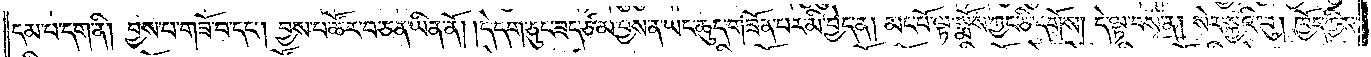དམ་པ་དག་ནི། བྱས་པ་གཟོ་བ་དང༌། བྱས་པ་ཚོར་བ་ཅན་ཡིན་ནོ། །དེ་དག་ཅུང་ཟད་ཙམ་བྱས་ན་ཡང་ཆུད་གཟོན་པར་མི་བྱེད་ན། མང་པོ་ལྟ་སྨོས་ཀྱང་ཅི་དགོས། དེ་ལྟ་བས་ན། སེར་སྐྱའི་བུ། ཁྱོད་ཀྱིས་
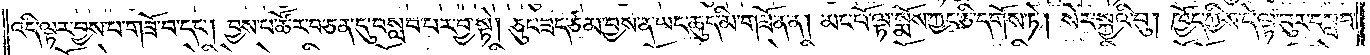འདི་ལྟར་བྱས་པ་གཟོ་བ་དང༌། བྱས་པ་ཚོར་བ་ཅན་དུ་བསླབ་པར་བྱ་སྟེ། ཅུང་ཟད་ཙམ་བྱས་ན་ཡང་ཆུད་མི་གཟོན་ན། མང་པོ་ལྟ་སྨོས་ཀྱང་ཅི་དགོས་ཏེ། སེར་སྐྱའི་བུ། ཁྱོད་ཀྱིས་དེ་ལྟ་བུར་བསླབ་
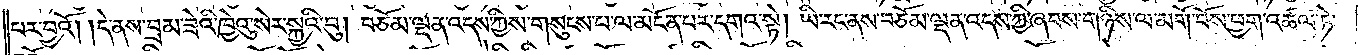པར་བྱའོ། །དེ་ནས་བྲམ་ཟེའི་ཁྱེའུ་སེར་སྐྱའི་བུ། བཅོམ་ལྡན་འདས་ཀྱིས་གསུངས་པ་ལ་མངོན་པར་དགའ་སྟེ། ཡི་རང་ནས་བཅོམ་ལྡན་འདས་ཀྱི་ཞབས་གཉིས་ལ་མགོ་བོས་ཕྱག་འཚལ་ཏེ་
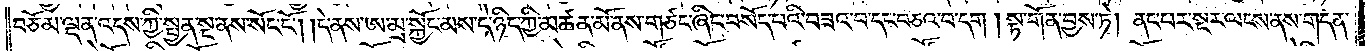བཅོམ་ལྡན་འདས་ཀྱི་སྤྱན་སྔ་ནས་སོང་ངོ༌། །དེ་ནས་ཨ་མྲ་སྐྱོང་མས་དེ་ཉིད་ཀྱི་མཚན་མོ་ནས་གཙང་ཞིང་བསོད་པའི་བཟའ་བ་དང་བཅའ་བ་དག །སྟ་གོན་བྱས་ཏེ། ནང་པར་སྔར་ལངས་ནས་གདན་
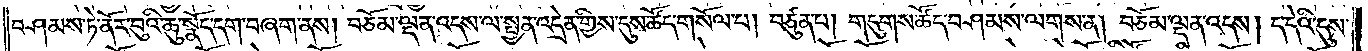བཤམས་ཏེ་ནོར་བུའི་ཆུ་སྣོད་དག་བཞག་ནས། བཅོམ་ལྡན་འདས་ལ་སྤྱན་འདྲེན་གྱིས་དུས་ཚོད་གསོལ་བ། བཙུན་པ། གདུགས་ཚོད་བཤམས་ལགས་ན། བཅོམ་ལྡན་འདས། ད་དེའི་དུས་
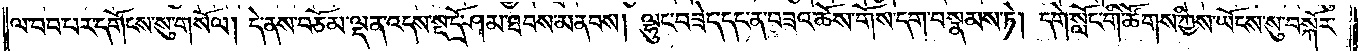ལ་བབ་པར་དགོངས་སུ་གསོལ། དེ་ནས་བཅོམ་ལྡན་འདས་སྔ་དྲོ་ཤམ་ཐབས་མནབས། ལྷུང་བཟེད་དང་ན་བཟའ་ཆོས་གོས་དག་བསྣམས་ཏེ། དགེ་སློང་གི་ཚོགས་ཀྱིས་ཡོངས་སུ་བསྐོར་
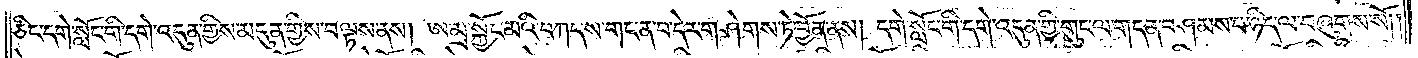ཅིང་དགེ་སློང་གི་དགེ་འདུན་གྱིས་མདུན་གྱིས་བལྟས་ནས། ཨ་མྲ་སྐྱོང་མའི་བཀད་ས་གང་ན་བ་དེར་གཤེགས་ཏེ་བྱོན་ནས། དགེ་སློང་གི་དགེ་འདུན་གྱི་གུང་ལ་གདན་བཤམས་པ་ཉིད་ལ་བཞུགས་སོ༎
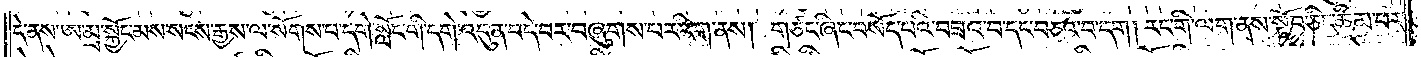དེ་ནས་ཨ་མྲ་སྐྱོང་མས་སངས་རྒྱས་ལ་སོགས་པ་དགེ་སློང་གི་དགེ་འདུན་བདེ་བར་བཞུགས་པར་རིག་ནས། གཙང་ཞིང་བསོད་པའི་བཟའ་བ་དང་བཅའ་བ་དག །རང་གི་ལག་ནས་སྟོབ་ཅིང་ཚིམ་པར་
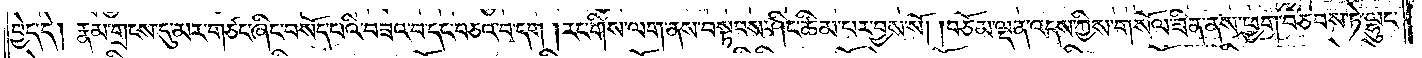བྱེད་དེ། རྣམ་གྲངས་དུ་མར་གཙང་ཞིང་བསོད་པའི་བཟའ་བ་དང་བཅའ་བ་དག །རང་གིས་ལག་ནས་བསྟབས་ཤིང་ཚིམ་པར་བྱས་སོ། །བཅོམ་ལྡན་འདས་ཀྱིས་གསོལ་ཟིན་ནས་ཕྱག་བཅབས་ཏེ་ལྷུང་
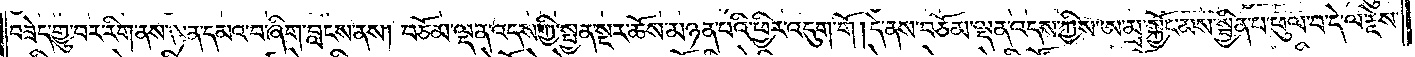བཟེད་གྱུ་བར་རིག་ནས་སྟན་དམའ་བ་ཞིག་བླངས་ནས། བཅོམ་ལྡན་འདས་ཀྱི་སྤྱན་སྔར་ཆོས་མཉན་པའི་ཕྱིར་འདུག་གོ། དེ་ནས་བཅོམ་ལྡན་འདས་ཀྱིས་ཨ་མྲ་སྐྱོང་མས་སྦྱིན་པ་ཕུལ་བ་དེ་ལ་རྗེས་
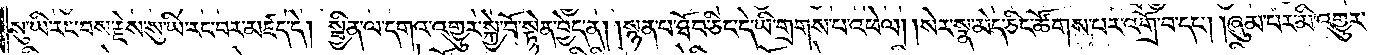སུ་ཡི་རང་བས་རྗེས་སུ་ཡི་རང་པར་མཛད་དེ། སྦྱིན་ལ་དགའ་འགྱུར་སྐྱེ་བོ་སྟེན་བྱེད་ན། །སྙན་པ་ཐོབ་ཅིང་དེ་ཡི་གྲགས་པ་འཕེལ། །སེར་སྣ་མེད་ཅིང་ཚོགས་པར་འགྲོ་བ་དང༌། །ཞུམ་པར་མི་འགྱུར་
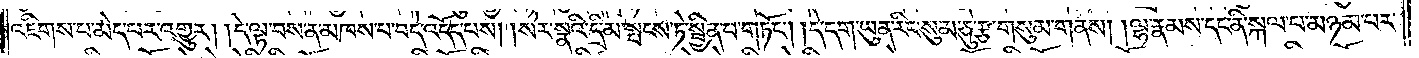འཇིགས་པ་མེད་པར་འགྱུར། །དེ་ལྟ་བས་ན་མཁས་པ་བདེ་འདོད་པས། །སེར་སྣའི་དྲི་མ་སྤངས་ཏེ་སྦྱིན་པ་གཏོང༌། །དེ་དག་ཡུན་རིང་སུམ་ཅུ་རྩ་གསུམ་གནས། །ལྷ་རྣམས་དང་ནི་སྐལ་པ་མཉམ་པར་
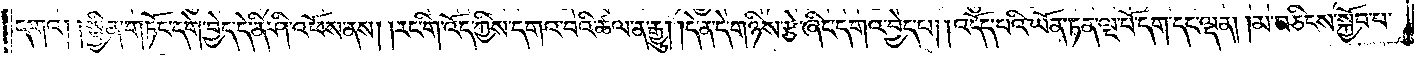དགའ། །སྦྱིན་གཏོང་དགེ་བྱེད་དེ་ནི་ཤི་འཕོས་ནས། །རང་གི་འོད་ཀྱིས་དགའ་བའི་ཚལ་ན་རྒྱུ། །དེ་ན་དེ་གཉིས་རྩེ་ཞིང་དགའ་བྱེད་པ། །འདོད་པའི་ཡོན་ཏན་ལྔ་པོ་དག་དང་ལྡན། །མ་བཅིངས་སྐྱོབ་པ་
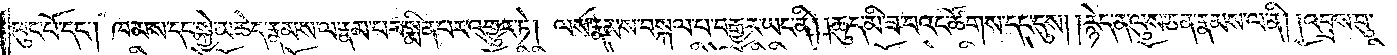ཕུང་པོ་དང༌། ཁམས་དང་སྐྱེ་མཆེད་རྣམས་ལ་རྣམ་པར་སྨིན་པར་འགྱུར་ཏེ། ལས་རྣམས་བསྐལ་པ་བརྒྱར་ཡང་ནི། །ཆུད་མི་ཟ་བའང་ཚོགས་དང་དུས། །རྙེད་ན་ལུས་ཅན་རྣམས་ལ་ནི། །འབྲས་བུ་
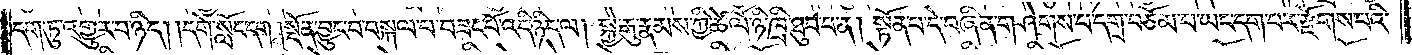དག་ཏུ་འགྱུར་བ་ཉིད། །དགེ་སློང་དག །སྔོན་བྱུང་བ་བསྐལ་པ་བཟང་པོ་འདི་ཉིད་ལ། སྐྱེ་རྒུ་རྣམས་ཀྱི་ཚེ་ལོ་ཉི་ཁྲི་ཐུབ་པ་ན། སྟོན་པ་དེ་བཞིན་གཤེགས་པ་དགྲ་བཅོམ་པ་ཡང་དག་པར་རྫོགས་པའི་
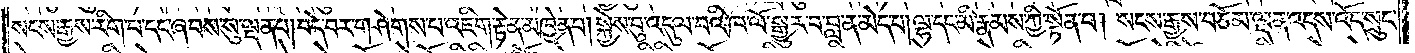སངས་རྒྱས་རིག་པ་དང་ཞབས་སུ་ལྡན་པ། བདེ་བར་གཤེགས་པ་འཇིག་རྟེན་མཁྱེན་པ། སྐྱེས་བུ་འདུལ་བའི་ཁ་ལོ་སྒྱུར་བ་བླ་ན་མེད་པ།ལྷ་དང་མི་རྣམས་ཀྱི་སྟོན་པ། སངས་རྒྱས་བཅོམ་ལྡན་འདས་འོད་སྲུང་
